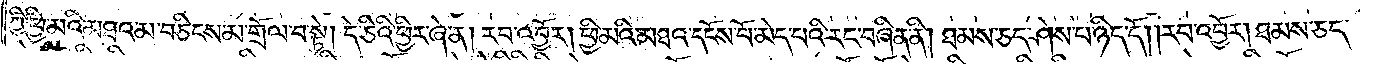ཀྱི་ཕྱི་མའི་མཐའ་མ་བཅིངས་མ་གྲོལ་བ་སྟེ། དེ་ཅིའི་ཕྱིར་ཞེ་ན། རབ་འབྱོར། ཕྱི་མའི་མཐའ་དངོས་པོ་མེད་པའི་རང་བཞིན་ནི། ཐམས་ཅད་ཤེས་པ་ཉིད་དོ། །རབ་འབྱོར། ཐམས་ཅད་
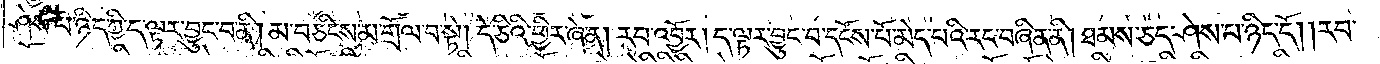ཤེས་པ་ཉིད་ཀྱི་ད་ལྟར་བྱུང་བ་ནི། མ་བཅིངས་མ་གྲོལ་བ་སྟེ། དེ་ཅིའི་ཕྱིར་ཞེ་ན། རབ་འབྱོར། ད་ལྟར་བྱུང་བ་དངོས་པོ་མེད་པའི་རང་བཞིན་ནི། ཐམས་ཅད་ཤེས་པ་ཉིད་དོ། །རབ་
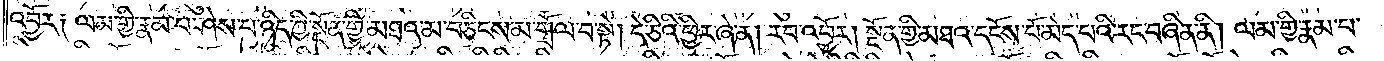འབྱོར༑ ལམ་གྱི་རྣམ་པ་ཤེས་པ་ཉིད་ཀྱི་སྔོན་གྱི་མཐའ་མ་བཅིངས་མ་གྲོལ་བ་སྟེ། དེ་ཅིའི་ཕྱིར་ཞེ་ན། རབ་འབྱོར། སྔོན་གྱི་མཐའ་དངོས་པོ་མེད་པའི་རང་བཞིན་ནི། ལམ་གྱི་རྣམ་པ་
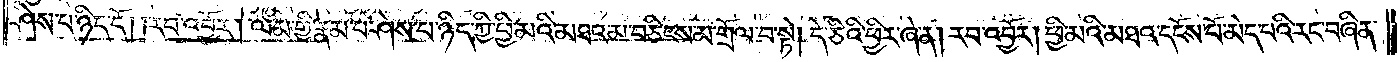ཤེས་པ་ཉིད་དོ། །རབ་འབྱོར། ལམ་གྱི་རྣམ་པ་ཤེས་པ་ཉིད་ཀྱི་ཕྱི་མའི་མཐའ་མ་བཅིངས་མ་གྲོལ་བ་སྟེ། དེ་ཅིའི་ཕྱིར་ཞེ་ན། རབ་འབྱོར། ཕྱི་མའི་མཐའ་དངོས་པོ་མེད་པའི་རང་བཞིན་
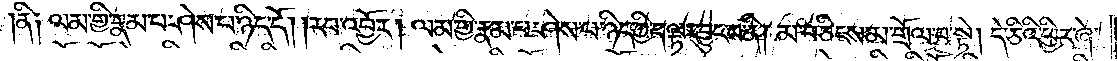ནི༑ ལམ་གྱི་རྣམ་པ་ཤེས་པ་ཉིད་དོ། །རབ་འབྱོར། ལམ་གྱི་རྣམ་པ་ཤེས་པ་ཉིད་ཀྱི་ད་ལྟར་བྱུང་བ་ནི། མ་བཅིངས་མ་གྲོལ་བ་སྟེ། དེ་ཅིའི་ཕྱིར་ཞེ་
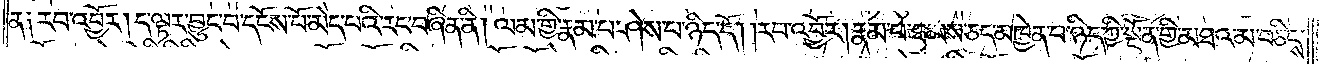ན༑ རབ་འབྱོར། ད་ལྟར་བྱུང་བ་དངོས་པོ་མེད་པའི་རང་བཞིན་ནི། ལམ་གྱི་རྣམ་པ་ཤེས་པ་ཉིད་དོ། །རབ་འབྱོར། རྣམ་པ་ཐམས་ཅད་མཁྱེན་པ་ཉིད་ཀྱི་སྔོན་གྱི་མཐའ་མ་བཅིངས་
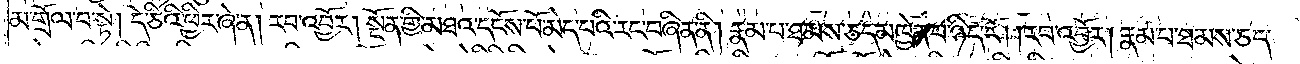མ་གྲོལ་བ་སྟེ། དེ་ཅིའི་ཕྱིར་ཞེ་ན། རབ་འབྱོར། སྔོན་གྱི་མཐའ་དངོས་པོ་མེད་པའི་རང་བཞིན་ནི། རྣམ་པ་ཐམས་ཅད་མཁྱེན་པ་ཉིད་དོ། །རབ་འབྱོར། རྣམ་པ་ཐམས་ཅད་
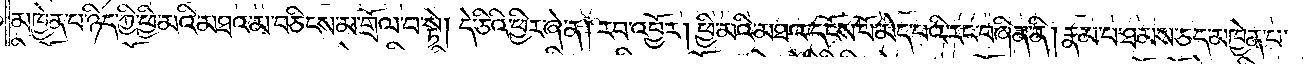མཁྱེན་པ་ཉིད་ཀྱི་ཕྱི་མའི་མཐའ་མ་བཅིངས་མ་གྲོལ་བ་སྟེ། དེ་ཅིའི་ཕྱིར་ཞེ་ན། རབ་འབྱོར། ཕྱི་མའི་མཐའ་དངོས་པོ་མེད་པའི་རང་བཞིན་ནི། རྣམ་པ་ཐམས་ཅད་མཁྱེན་པ་
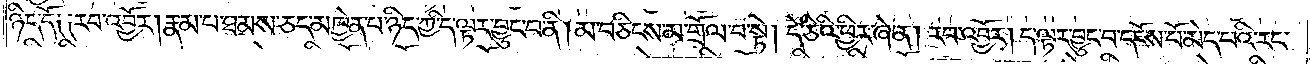ཉིད་དོ༑ ༑རབ་འབྱོར། རྣམ་པ་ཐམས་ཅད་མཁྱེན་པ་ཉིད་ཀྱི་ད་ལྟར་བྱུང་བ་ནི། མ་བཅིངས་མ་གྲོལ་བ་སྟེ། དེ་ཅིའི་ཕྱིར་ཞེ་ན། རབ་འབྱོར། ད་ལྟར་བྱུང་བ་དངོས་པོ་མེད་པའི་རང་
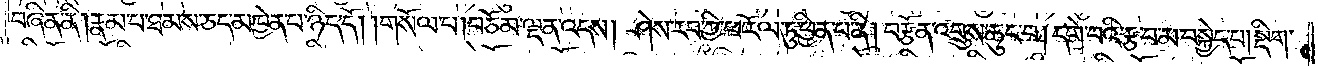བཞིན་ནི། རྣམ་པ་ཐམས་ཅད་མཁྱེན་པ་ཉིད་དོ། །གསོལ་པ། བཅོམ་ལྡན་འདས། ཤེས་རབ་ཀྱི་ཕ་རོལ་ཏུ་ཕྱིན་པ་ནི། བརྩོན་འགྲུས་ཆུང་བ། དགེ་བའི་རྩ་བ་མ་བསྐྱེད་པ། སྡིག་
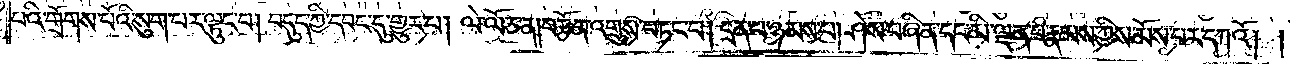པའི་གྲོགས་པོའི་སུག་པར་ལྟུང་བ། བདུད་ཀྱི་དབང་དུ་གྱུར་པ། ལེ་ལོ་ཅན། བརྩོན་འགྲུས་བཏང་བ། དྲན་པ་ཉམས་པ། ཤེས་བཞིན་དང་མི་ལྡན་པ་རྣམས་ཀྱིས་མོས་པར་དཀའོ། །
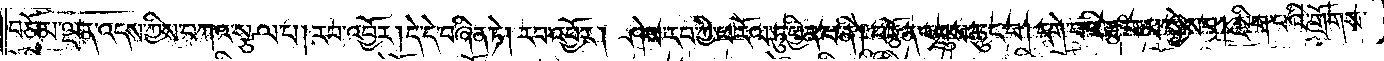བཅོམ་ལྡན་འདས་ཀྱིས་བཀའ་སྩལ་པ། རབ་འབྱོར། དེ་དེ་བཞིན་ཏེ། རབ་འབྱོར། ཤེས་རབ་ཀྱི་ཕ་རོལ་ཏུ་ཕྱིན་པ་ནི། བརྩོན་འགྲུས་ཆུང་བ། དགེ་བའི་རྩ་བ་མ་བསྐྱེད་པ། སྡིག་པའི་གྲོགས་
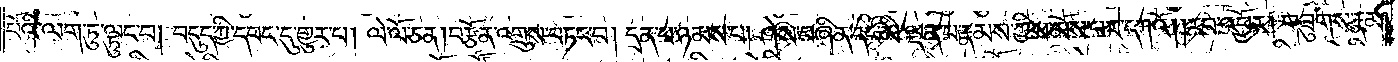པོའི་ལག་ཏུ་ལྟུང་བ། བདུད་ཀྱི་དབང་དུ་གྱུར་པ། ལེ་ལོ་ཅན། བརྩོན་འགྲུས་བཏང་བ། དྲན་པ་ཉམས་པ། ཤེས་བཞིན་དང་མི་ལྡན་པ་རྣམས་ཀྱིས་མོས་པར་དཀའོ། །རབ་འབྱོར། གཟུགས་རྣམ་
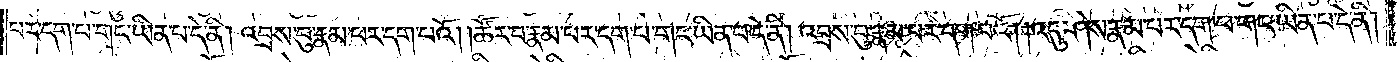པར་དག་པ་གང་ཡིན་པ་དེ་ནི། འབྲས་བུ་རྣམ་པར་དག་པའོ། །ཚོར་བ་རྣམ་པར་དག་པ་གང་ཡིན་པ་དེ་ནི། འབྲས་བུ་རྣམ་པར་དག་པའོ། །འདུ་ཤེས་རྣམ་པར་དག་པ་གང་ཡིན་པ་དེ་ནི།
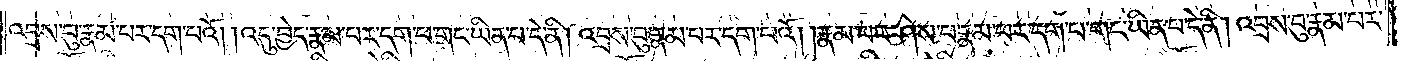འབྲས་བུ་རྣམ་པར་དག་པའོ། །འདུ་བྱེད་རྣམ་པར་དག་པ་གང་ཡིན་པ་དེ་ནི། འབྲས་བུ་རྣམ་པར་དག་པའོ། །རྣམ་པར་ཤེས་པ་རྣམ་པར་དག་པ་གང་ཡིན་པ་དེ་ནི། འབྲས་བུ་རྣམ་པར་
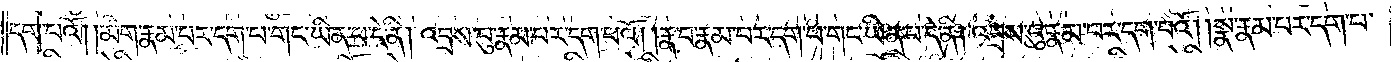དག་པའོ། །མིག་རྣམ་པར་དག་པ་གང་ཡིན་པ་དེ་ནི། འབྲས་བུ་རྣམ་པར་དག་པའོ། །རྣ་བ་རྣམ་པར་དག་པ་གང་ཡིན་པ་དེ་ནི། འབྲས་བུ་རྣམ་པར་དག་པའོ། །སྣ་རྣམ་པར་དག་པ་
